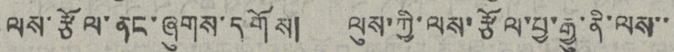ལས་རྩོལ་ནང་ཞུགས་དགོས། ལུས་ཀྱི་ལས་རྩོལ་བྱ་རྒྱུ་ནི་ལས་་་
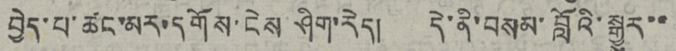བྱེད་པ་ཚང་མར་དགོས་ངེས་ཤིག་རེད། དེ་ནི་བསམ་བློའི་སྒྱུར་་་
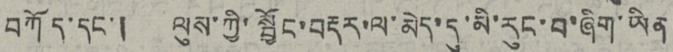བཀོད་དང་། ལུས་ཀྱི་སྦྱོང་བརྡར་ལ་མེད་དུ་མི་རུང་བ་ཞིག་ཡིན་
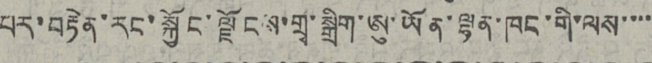པར་བརྟེན་རང་སྐྱོང་ལྗོངས་གྲྭ་སྒྲིག་ཨུ་ཡོན་ལྷན་ཁང་གི་ལས་་་་་
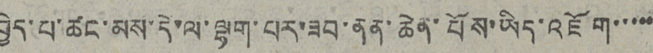བྱེད་པ་ཚང་མས་དེ་ལ་ལྷག་པར་ཟབ་ནན་ཆེན་པོས་ཡིད་འཇོག་་་་་
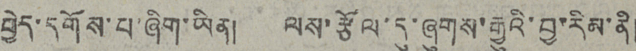བྱེད་དགོས་པ་ཞིག་ཡིན། ལས་རྩོལ་དུ་ཞུགས་རྒྱུའི་བྱ་རིམ་ནི།
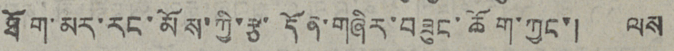ཐོག་མར་རང་མོས་ཀྱི་རྩ་དོན་གཞིར་བཟུང་ཆོག་ཀྱང་། ལས
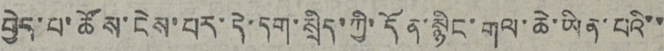བྱེད་པ་ཚོས་ངེས་པར་དེ་དག་སྲིད་ཀྱི་དོན་སྙིང་གལ་ཆེ་ཡིན་པའི་་་
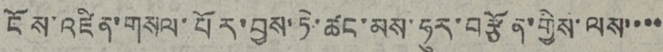ངོས་འཛིན་གསལ་པོར་བྱས་ཏེ་ཚང་མས་ཧུར་བརྩོན་གྱིས་ལས་་་་་
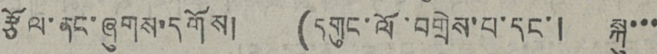རྩོལ་ནང་ཞུགས་དགོས། (དགུང་ལོ་བགྲེས་པ་དང་། སྐུ་་་་
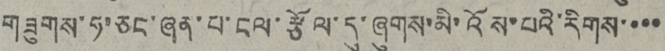གཟུགས་ཧ་ཅང་ཞན་པ་ངལ་རྩོལ་དུ་ཞུགས་མི་འོས་པའི་རིགས་་་་
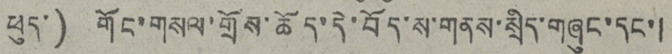ཕུད་) གོང་གསལ་གྲོས་ཆོད་དེ་བོད་ས་གནས་སྲིད་གཞུང་དང་།
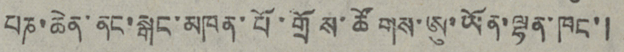པཎ་ཆེན་ནང་སྒང་མཁན་པོ་གྲོས་ཚོགས་ཨུ་ཡོན་ལྷན་ཁང་།
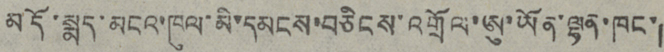མདོ་སྨད་མངའ་ཁུལ་མི་དམངས་བཅིངས་འགྲོལ་ཨུ་ཡོན་ལྷན་ཁང་།
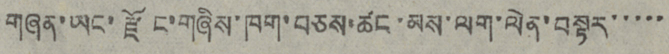གཞན་ཡང་རྫོང་གཞིས་ཁག་བཅས་ཚང་མས་ལག་ལེན་བསྟར་་་་་
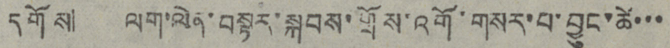དགོས།  ལག་ལེན་བསྟན་སྐབས་གྲོས་འགོ་གསར་པ་བྱུང་ཚེ་་་
